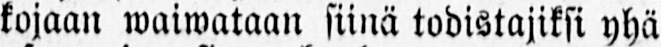kojaan waiwataan siinä todistajiksi yhä
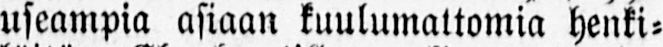useampia asiaan kuulumattomia henki-
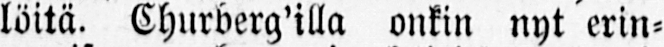löitä. Churberg'illa onkin nyt erin-
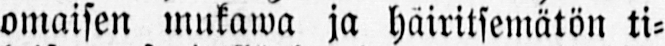omaisen mukawa ja häiritsemätön ti-
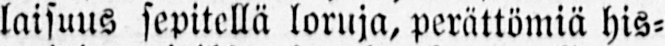laisuus sepitellä loruja, perättömiä his-
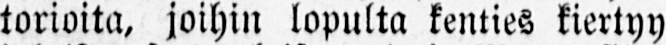torioita, joihin lopulta kenties kiertyy
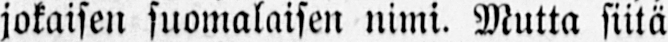jokaisen suomalaisen nimi. Mutta siitä
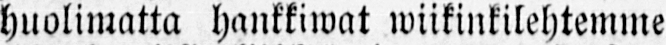huolimatta hankkiwat wiikinkilehtemme
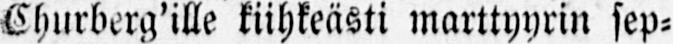Churberg'ille kiihkeästi marttyyrin sep-
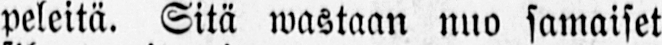peleitä. Sitä wastaan nuo samaiset
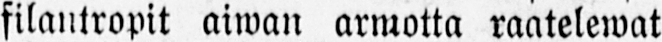filantropit aiwan armotta raatelewat
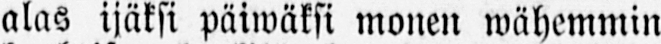alas ijäksi päiwäksi monen wähemmin
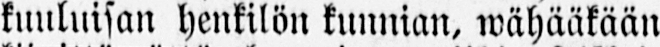kuuluisan henkilön kunnian, wähääkään
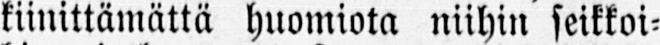kiinittämättä huomiota niihin seikkoi-
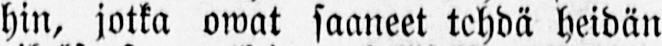hin, jotka owat saaneet tehdä heidän
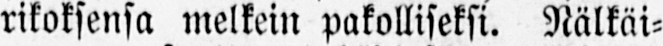rikoksensa melkein pakolliseksi. Nälkäi-
